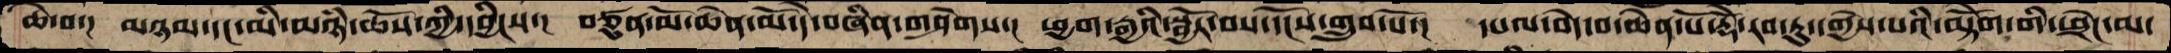ཆེ་བ་།  མཉམ་དང་མི་མཉཾ་ཆོས་ཀྱི་དབྱིངས་།  བཙུན་མོ་ཆེན་མོ་དེ་བཞིན་གཤེགས་།  ཕྱག་རྒྱའི་སྦྱོར་བས་དངོས་གྲུབ་པོ་།  དཔལ་བདེ་བ་ཆེན་པོ་རྡོེ་རབ་ཏུ་དགྱེས་པའི་མྟེོག་གི་ཕྲེང་མ་
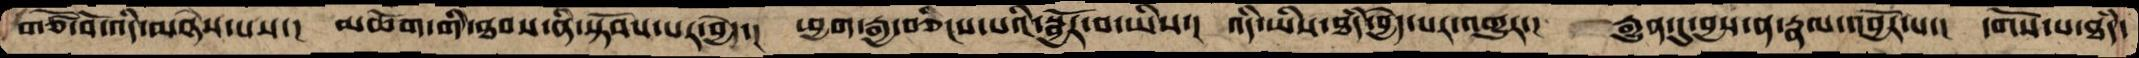གཙོ་བོ་འདི་མཉེས་པས་།  མཆོག་གི་ཐབས་ནི་སྟོབས་པར་བྱེད་།  ཕྱག་རྒྱ་བཅིངས་པའི་སྦྱོར་བ་ཡིས་།  འདི་ཡིས་ཐཾད་བྱེད་པར་འགྱུར་།   རྒྱུན་དུ་བྱས་ན་རྣལ་འབྱོར་པ་།  དགོས་པ་ཐཾད་
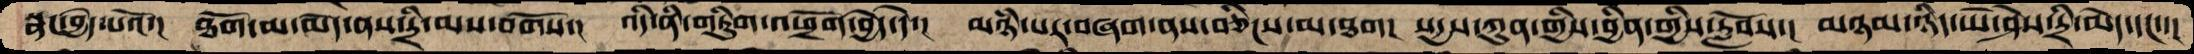སྣང་བྱེད་པའོ་།   ཐོག་མ་མེད་ནས་དྲི་མས་བགོས་།  འདི་ནི་གཏིུག་འཕྲོག་བྱེད་དེ་།  མཉཾ་པར་བཞག་ནས་བཅིངས་མ་ཐག།  སདྱས་ཀུན་གྱིས་བྱིན་གྱིས་རློབས་།  མཉམ་ཉིད་ཡེ་ཤེས་དྲི་མེད་དང་་།
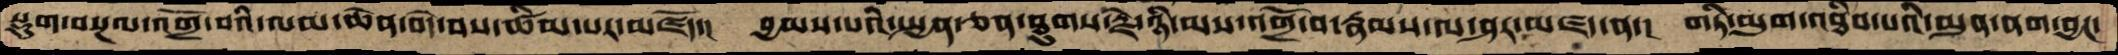སྡུག་བསྔལ་འགྲོ་བའི་ལམ་ཆེན་བདེ་བས་ཚིམ་པར་མཛོད་།  བྱམས་པའི་སྤྱན་ཅན་ཐུགས་རྗེ་ཉི་མས་འགྲོ་བ་རྣམས་ལ་ཤར་མཛད་ན་།  གཏི་མུག་འཐིབ་པའི་མུན་ནག་བྱང་
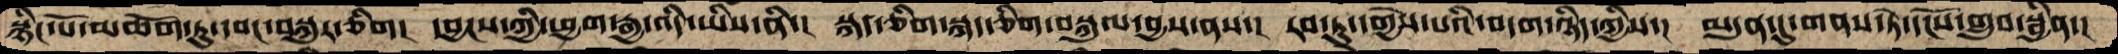སྙིང་པོ་མཆོག་ཏུ་དབང་བསྐུར་ཅིག།  དབྱངས་ཀྱི་ཕྱག་རྒྱ་འདི་ཡིས་ནི་།  སྐད་ཅིག་སྐད་ཅིག་བསྐུལ་བྱས་ནས་།  རབ་ཏུ་དགྱེས་པའི་བདག་ཉིད་ཀྱེས་།  མདུན་དུ་གནས་ཏེ་དངོས་གྲུབ་སྦྱིན་།
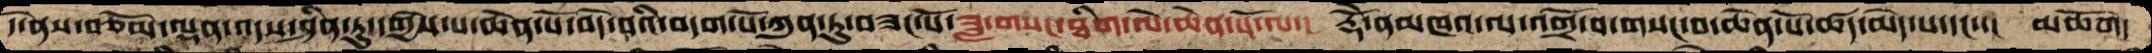དེ་ནས་བཅོམ་ལྡན་འདས་ཤིན་ཏུ་དགྱེས་པ་ཆེན་པོ་བདེ་བའི་བདག་པོ་ཀུན་ཏུ་བཟང་པོ་ཟླ་གསང་ཐིག་ལེ་ཆེན་པོ་ལ་།  རྡོེ་ནམཁའ་ལ་འགྲོ་བ་གསང་བ་ཆེན་པོ་ཚད་མེད་པ་དང་་།  མཆོག་
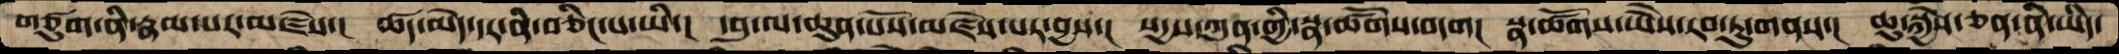གཙུག་ནི་རྣམ་པར་མཛེས་།   ཚད་མེད་དར་ནི་བཅིངས་པ་ཡི་།  དབུ་ལ་ཆུན་པོས་མཛེས་པར་བྱས་།   སདྱས་ཀུན་གྱི་སྣ་ཚོགས་བདག།  སྣ་ཚོགས་ཡཻས་རབ་ཏུ་གནས་།  ཆུ་སྐྱེས་ཅན་ནི་ཡིད་
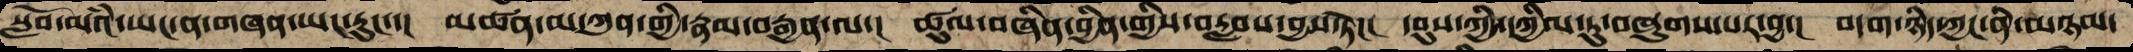སློབ་མའི་ཡང་ན་གཞན་ཡང་རུང་་།  མཚན་མ་ཀུན་གྱི་རྣམ་རྒྱན་ལ་།  ཚུལ་བཞིན་བྱིན་གྱིས་བརླབས་བྱས་ཏེ་།  དབུས་ཀྱི་དཀྱིལ་ཏུ་བཞུགས་ར་བྱ་།  བདག་ཉིད་ཀྱང་ནི་མཉམ་
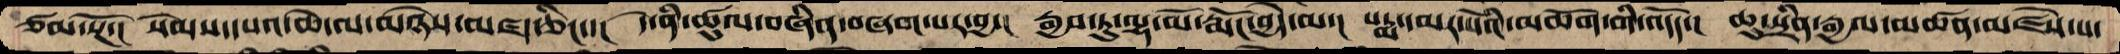ཙམ་སྔོ་།  སེམས་དཔའ་ཆེ་ལ་མཉེས་མཛད་ཅིང་་།  དེ་ནི་ཚུལ་བཞིན་བཞག་པར་བྱ་།  རྒྱབ་ཏུ་ལྷ་མོ་རྨོང་བྱེད་མ་།  པདྨ་དམར་པོའི་མཆོག་གི་འདོད་།  ཆུ་སྲིན་རྒྱལ་མཚན་མཛེས་པ་
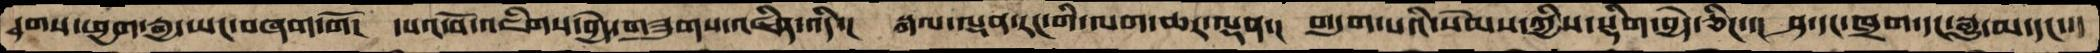དྭགས་ཕྱག་རྒྱ་ཡང་བཞག་གོ་།  དཔའ་བོ་འཇིགས་བྱེད་གཟུགས་འཛིན་འདི་།  སྐལ་ལྡན་རང་གི་ལག་ཆར་ལྡན་།  གདུག་པའི་སེམས་ཀྱིས་སྡིག་བྱེད་ཅིང་་།  ཤ་དང་ཁྲག་དང་སྒྱུ་མ་དང་་།
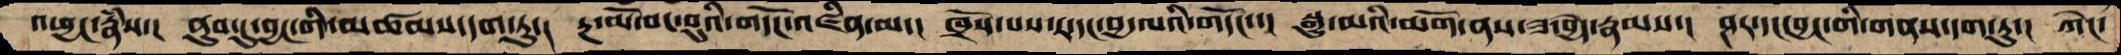འཕྱང་རྣཾས་།  ནུབ་དུ་བྱང་གི་མཚམས་དག་ཏུ་།  རྔ་མོ་བང་བུའི་གདོང་འཛིན་མ་།   ཁྲོས་པས་ར་དང་བྱ་ལའི་གདོང་་།   སྒྱུ་མའི་མགོ་ནས་ཟ་བྱེད་རྣམས་།  ཤར་དང་བྱང་གི་གནས་དག་ཏུ་།  ཀེང་
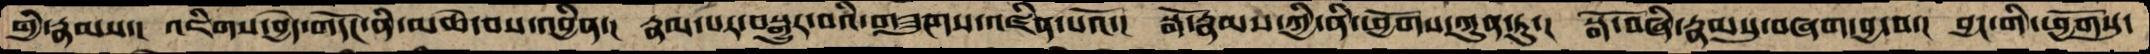གྱི་རྣམས་།   འཇིགས་བྱེད་གདོང་ནི་མཆེ་བས་འབྱིན་།  རྣམ་པར་བསྒྱུར་བའི་གཟུགས་འཛིན་པའོ་།  སྒོ་རྣམས་ཀྱི་ནི་ཕྱོགས་ཀུན་ཏུ་།   སྒོ་བཞི་རྣམསུ་བཞག་བྱ་བ་།  བྱང་གི་ཕྱོགསུ་
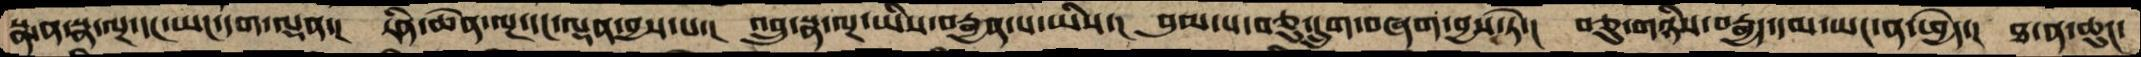སྣ་ན་སྣ་ལྔ་དང་ཡང་དག་ལྡན་།  རིན་ཆེན་ལྔ་དང་ལྡན་བྱས་པ་།  འབྲུ་སྣ་ལྔ་ཡིས་བརྒྱན་པ་ཡིས་།  བུམ་པ་བཅུ་དྲུག་བཞག་བྱས་ཏེ་།  བཅུ་གཉིས་བརྒྱད་དམ་ཡང་ན་ཕྱེད་།  ཐ་ན་ཆུང་
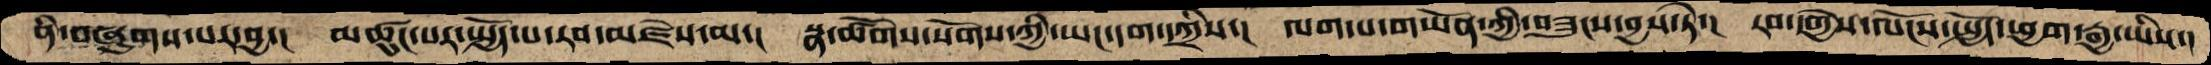ནི་བཞུགས་པར་བྱ་།  མཚུང་པར་སྤྱོད་པ་རབ་མཛེས་མ་།  སྣ་ཚོགས་སོགས་ཀྱི་ཡང་དག་དཀྲིས་།  ལག་པ་གཡོན་ཀྱི་བཟུངས་བྱས་ཏེ་།  རབ་དགྱེས་ལོངས་སྤྱོད་ཕྱག་རྒྱ་ཡིས་།
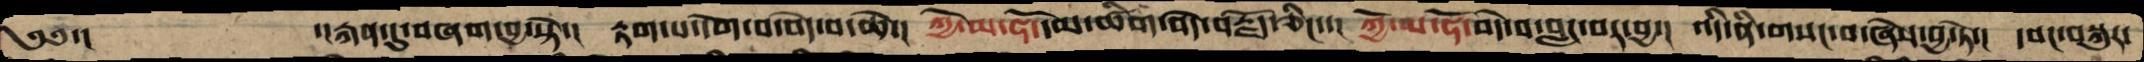༄༅་།          ་།རྐན་དུ་བཞག་བྱ་སྟེ་།  རྟག་པ་དོག་པ་བདེ་བ་ཆེ་། ཀྱེ་མ་ཧོ་དམ་ཚིག་བདེ་བརྗོད་ཅིང་་། ཀྱེ་མ་ཧོ་བདེ་བ་བླང་བར་བྱ་།  འདི་ནི་གསང་བ་ཞེས་བྱ་ཏེ་།  དབང་བསྐུར་
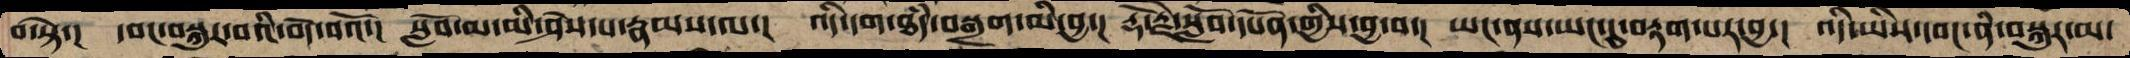བ་སྟེ་།  དབང་བསྐུར་བའི་བདེ་བའོ་།   སློབ་མ་མི་ཤེས་པ་རྣམས་ལ་།  འདི་དག་ཐཾད་བསྒྲག་མི་བྱ་།  རྡོ་རྗེ་སློབ་དཔོན་གྱིས་བྱ་བ་།  ཡང་ནས་ཡང་དུ་བརྟག་པར་བྱ་།  འདི་ཡིས་དབང་ནི་བསྐུར་མ་
